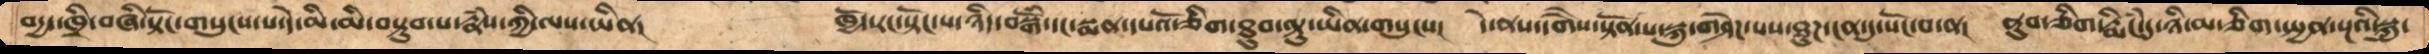བདྱད་ཁྲི་བཞི་སྟོང་གསུངས་པ་དེ་མི་མི་བསྟུབ་པ་རྣཾས་ཀྱི་ལས་ཡིན།   ཁྱོད་རང་སྟོང་པ་ཉིད་བསྒོཾ་དང་སྨན་དཔའོ་ཅིག་ཐུབ་ལྟུ་ཡིན་གསུངས།   དེ་ནས་དགཻས་སྟོན་པ་སྐུ་གཤེཌ་པས་ཐུཌ་ངན་དུ་སོང་བ་ན།  ནུབ་ཅིག་རྨིངཾ་དུ་ཉི་མ་ཅིག་སྤྱན་སྔའི་སྐུ་
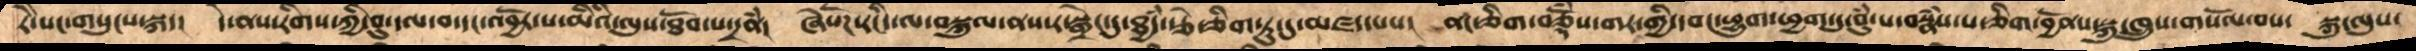རཻ་པང་གསུངས་སྐད།   དེ་ནས་རིགས་ཀྱི་བུ་དལ་བ་དང་འབྱོར་པ་མིའི་ལུས་ཐོབ་པ་དྲནཾ།  ཞེསོཌ་རིང་ལ་བསྐུལ་ནས་ར་སྒྲེང་དུ་ཐྱཾད་རྩེ་ཅིག་སྟུ་དུ་མཛད་པས།  ནང་ཅིག་བཅྡོཾས་་གར་གྱི་དབང་ཕྱུག་ཕྱག་དུ་བུཾ་པ་བསྣཾས་པ་ཅིག་བྱོནས་སྐུ་ཁྲུས་གསོལ་བས།  སྐུ་ལུས་
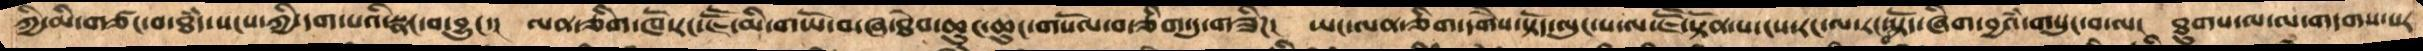ཀྱི་མི་གཙང་བ་ཐཾད་སངས་ཀྱི་དག་པའི་སྣང་བ་བྱུང་།  ལན་གཅིག་ཁོ་རང་ཇཽ་མི་གཡོ་བ་ཞ་ཐེབ་ཆུང་ཆུང་གསོལ་བ་ཅིག་དུ་གཟིཌ།  ཡང་ལན་ཅིག་དགཻས་སྟོད་ལུང་པ་ལ་ཇཽ་སྟོན་པ་ངས་རང་ལ་རང་བསྟོད་ཞིག་བྱའཾ་གསུང་བ་ལ།  ཐུགས་ལ་ལ་གདགས་པར་
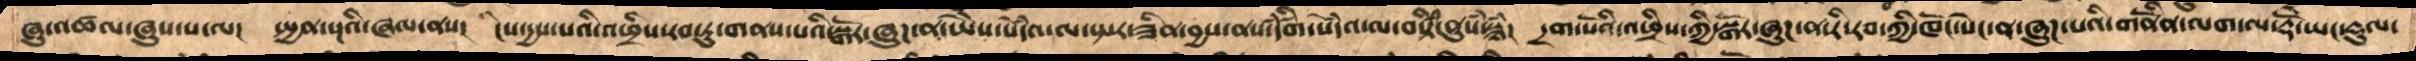ཞུ་འཚལ་ཞུས་པས།   སྤྱན་སྔའི་ཞལ་ནས།  ངིས་དྱས་པའི་འཕྲིས་རབ་ཏུ་གནས་པའི་སྒོར་ཞུཌ་ན་ཡཻས་སེདཾའ་ལ་སྤར་ཟིན་བྱས་ནས་དྃཚིག་སེདཾའ་ལ་བསྟིཾ་ནུསཾ་སྙཾ།  དྲག་པོའི་འཕྲིས་ཀྱི་སྒོར་ཞུཌ་ན་རི་རབ་ཀྱི་ཁོང་སེང་ན་ཞུཌ་པའི་གནོནི་ལག་ལ་རྡོ་ེཡང་རྡུལ་
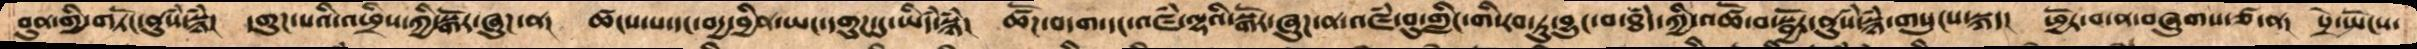བུན་གྱི་གཏོང་་ནུསཾ་སྙཾ།  དགུཌ་པའི་འཕྲིས་ཀྱི་སྒོར་ཞུཌ་ན།  ཚངས་པ་དང་བདྱ་བྱིན་ཡང་དགུཌ་དུ་ཡིདཾ་སྙཾ།  ཚོཌ་བདག་དང་འཛཾ་ལྷའི་སྒོར་ཞུཌ་ན་འཛཾ་བུ་གླིང་གི་རབ་ཏུ་བྱུང་བ་ཐཾད་ཀྱི་འཚོ་བ་སྦྱོར་ནུསཾ་སྙཾ་གསུངས་སྐད།  ཕྱོར་བ་ན་བཞུགས་ཙ་ན། སྲེ་སྤོངས་
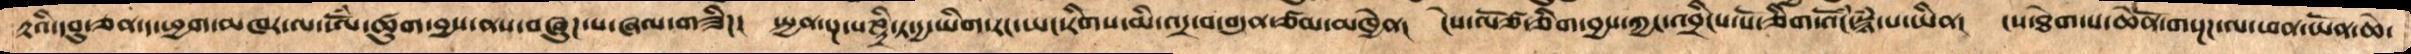རྟའི་དབུ་ཅན་ད་ཕྱག་མཁར་ལ་ཨོཾ་ཚུག་བྱས་ནས་བཞུཌ་པ་ཞལ་གཟིཌ།  སྤྱན་སྔ་པཎྜི་ཏ་དྱ་ཡིག་རང་ཡང་རིགས་མི་འདྲ་བ་བདུན་ཙམ་མཁྱེན།  ངེས་ལོ་ཙ་ཅིག་བྱས་ཀྱང་འབྲིངས་པོ་ཅིག་འོངཾ་སྙཾ་ཡིན།  ངས་ཐེག་པ་ཆེནོ་གསྔཌ་ལ་ཕན་ཡོན་ཆེ་
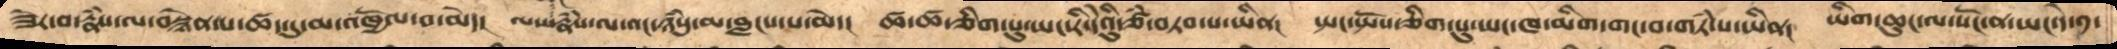ཟེར་བ་རྣཾས་ལ་བསྙེན་པ་ཚད་དུ་མ་འཁྱོལ་བ་མེད།  ལས་རྣཾས་ལ་འང་ཉཾསུ་མ་བླངས་པ་མེད།  ཚ་ཚ་ཅིག་པུ་ཡང་རི་དེའིུ་ཙཾ་བཏབ་པ་ཡིན།  སྤང་སྤོས་ཅིག་པུ་ཡང་ཁ་མིག་གང་བ་གཏཾ་པ་ཡིན།  ཡིག་ཆུང་ལ་སོང་ན་ཡང་དེ་༡་
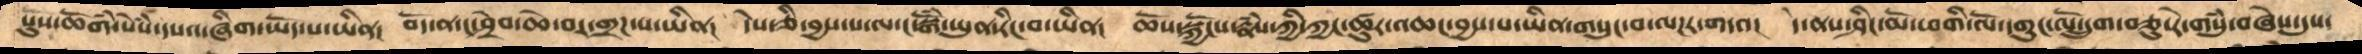སུས་ཆོགཾ་སེཾས་དཔའ་ཞིག་ཡོད་པ་ཡིན།  བོད་ན་ང་ཤྲེབ་ཆེ་བར་གྲཌ་པ་ཡིན།  དེས་ཅི་བྱས་པ་ལ་ང་སྒོཾ་ཡུན་རིང་བ་ཡིན།  ཆོས་སྐྱོངས་རྣཾས་ཀྱི་ཀྱང་ཚུར་འཆང་བྱས་པ་ཡིན་གསུང་བ་ལཌར་གདའ།   དེ་ནས་ཤིང་མོ་ཕགི་ལོ་དགུང་ལོ་དྲུག་བཅུ་རེ་གསུཾ་བཞེས་དུས་
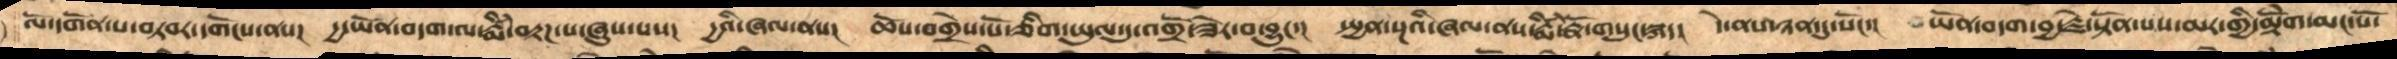ལོ་དགོན་པ་བཏབར་དགོངས་ནས།  དྱ་ཡོན་བདག་ལ་རྨིཾ་བརྟཌ་པ་ཞུས་པས།  དྱའི་ཞལ་ནས།  ཆོས་བགྲེས་པོ་ཅིག་ཡུལ་དུ་འགྲོ་ཟེར་བ་བྱུང་།  སྤྱན་སྔའི་ཞལ་ནས་རྨིཾ་རྣོ་གསུང་སྐད།   དེ་ནས་ཉན་དུ་བྱོན།  ཡོན་བདག་བྱ་རྗེ་སྟོན་པས་མར་གྱི་མྟེགོ་མང་པོ་
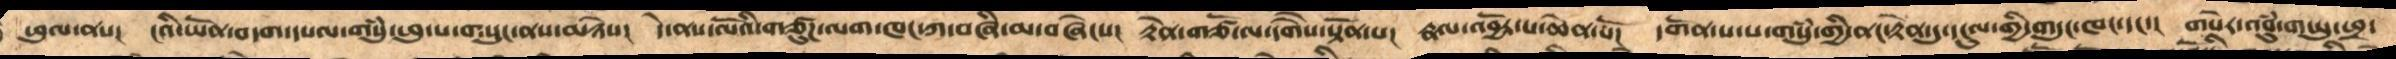ཕུལ་ནས།  ངའི་ཡོན་བདག་དཔལ་གསུཾ་ཕུ་པ་གསུང་ནས་མཉེས།  དེ་ནས་ལོའི་གཙུཌ་ལག་ཁང་ཀ་བཞི་མ་བཞེངས།  རྟེན་གཙོ་ལ་དགཻས་སྟོན་པ།  རྣལ་འབྱོར་པ་ཆེན་པོ།  དགོན་པ་པ་གསུཾ་གྱི་ནང་རྟེན་དུ་དངུལ་གྱི་གདུང་ཁང་དང་།  གསེར་འབུཾ་གཡུ་ཕྲ་
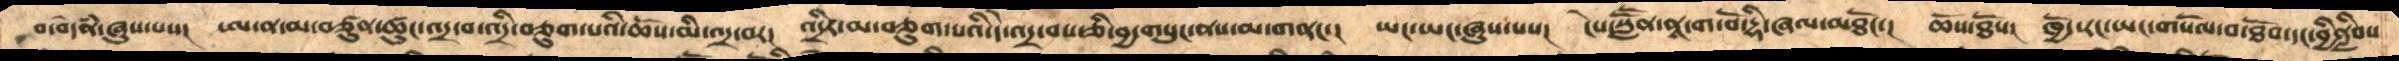བ་བདེནཾ་ཞུས་པས།  ཨ་ན་མ་བཙུན་ཚུང་འདྲ་བ་འདྲི་བཅུག་པའི་ཆོས་མི་འདྲ་བར།  འདྲིར་མ་བཅུག་པའི་དེ་འདྲ་བས་ཅི་བྱ་གསུང་ནས་མ་གནང་།  ཡང་ཡང་ཞུས་པས།  ངེས་སླཽན་ནཱ་ག་བོ་དྷི་ཞལ་མཐོང་།  ཆོས་ཐོས།  ཁྱོད་རང་ཡང་གསོལ་བ་ཐོབ་དང་བྱིནླིབས་
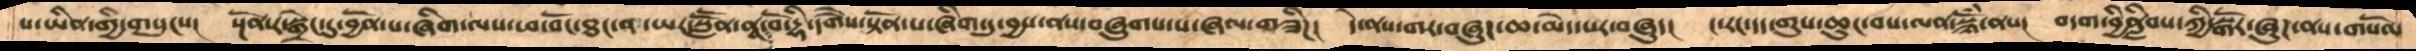པ་ཡིན་གྱི་གསུངས།  སྔོན་ར་སྒྲེང་དུ་བྱོན་པ་ཞིག་ལས་ཕ་བོང་ཐང་ན་ཡར་སླཽན་ནཱ་ག་བོ་དྷི་དགཻས་སྟོན་པ་ཞིག་དུ་བྱས་ནས་བཞུགས་པ་ཞལ་གཟིགས།  དེ་ནས་གར་བཞུད་ཆ་མེད་པར་བཞུད།  ང་རང་དད་གུས་ཆུང་བས་ལན་སྙོཾ་ནས། བདག་བྱིནླིབས་ཀྱི་སྒོར་ཞུཌ་ནས་གསོལ
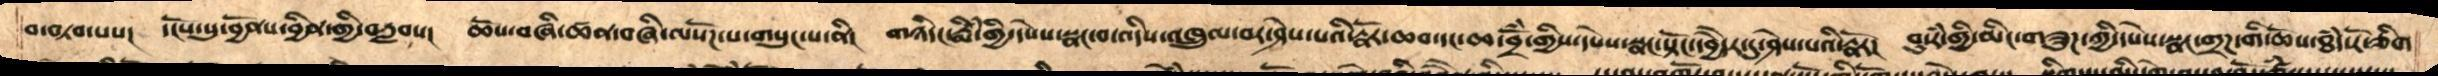བ་བཏབ་པས།  དངོས་སུ་བྱོནས་བྱིན་གྱི་བརླབས།  ཆོས་བཞི་ཚན་བཞི་ལསོཌ་པ་གསུངས་པ་ནི།  གཉིདང་རྨིཾ་གྱི་དཔེས་སྣང་བ་འདིས་འཁྲུལ་བར་ཤེས་པའི་རྣོར་ཆབ་དང་ཆ་བྲོཾ་གྱིས་དཔེས་སྣང་སྟོང་དབྱཻདར་དུ་ཤེས་པའི་རྣོར།  བུ་རཾ་གྱི་མིང་གཟུཌ་ཀྱི་དཔེས་སྣང་གྲཌ་གི་ཆོས་ཐཾད་རོ་ཅིག
